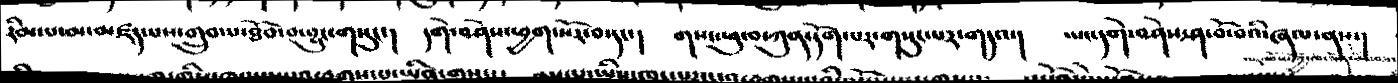རམ་པ་མ་མཛད་པས་གྲུབ་པ་ཐོབ་པ་བྱུང་གསུང་།    དགེ་བཤེས་ཕྱག་སོར་བ་དང་།  གསང་ཕུ་བ་ཀུན་དོག་པར་གསུང་པར་གདའ་།    ཡང་དགེ་བཤེས་ཤ་བོ་བའི་ཞལ་ནས་
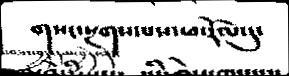གསང་སྔགས་པས་ཕ་རོལ་དུ་
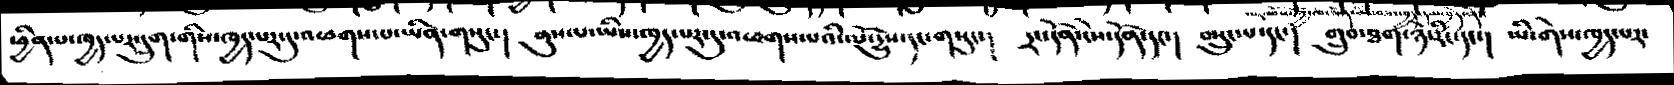ཕྱིན་པ་ཁྱད་པར་དྲུག་གིས་ཁྱད་པར་དུ་འཕགས་པ་ཡིན་གསུང་།   ནུས་པ་ཡིས་ཁྱད་པར་དུ་འཕགས་པའི་ལོ་རྱུས་དང་གསུང་།   དྲང་དོན་ངེས་དོན་དང་།   བསྲུང་པ་དང་།   གྲུབ་ཐག་ཉེ་རིང་དང་།   ཡི་གེས་ཁྱད་པར་
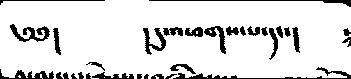༄༅།                །དུ་འཕགས་པ་དང་།
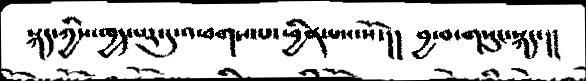སྐད་ཀྱིས་ཁྱད་པར་དུ་འཕགས་པ་ཕྱིན་པས་སོ་།།    བྱ་བ་གསུང་སྐད་།།
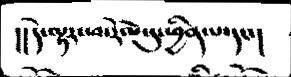།། དེ་ལྟར་ཕ་རོལ་དུ་ཕྱིན་པ་དང་།
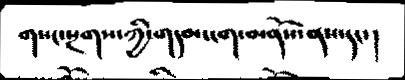གསང་སྔགས་ཀྱི་གདམ་ངག་མནོས་ནས་དང་།
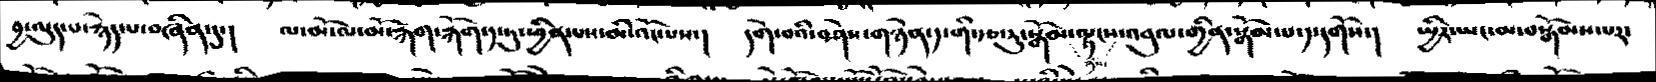བྱ་ལུད་པ་རྙེད་པ་བཞིན་དུ་།   ལ་མོ་ལ་མོ་རྐག་རྐོག་༡་ཏུ་ཕྱིན་པས་མི་འོང་པས་།   དགེ་བའི་བཤེས་གཉེན་༡་གི་རྩ་རུ་སྒོམ་ལྟངས་འབུལ་གྱིན་སྒོམ་པ་༡་དགོས་།  སྤྱིར་ཡང་མ་བསྒོམས་པར་
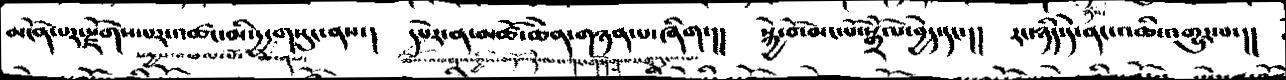མངོན་པར་རྫོགས་པར་འཚང་མི་དྱ་གསུང་ནས་།   དཔེར་ན་མཚོ་ཆེན་གཉན་པ་ཞིག་།།  སྐྱེ་བོ་མང་པོ་སྒྲོལ་བྱེད་དང་།།   རང་ཉིད་དེ་ནང་འཆི་འགྱུར་པ་།།
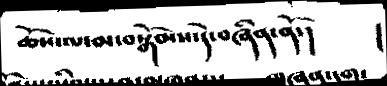ཆོས་ལ་མ་བསྒོམས་དེ་བཞིན་ནོ་།     །
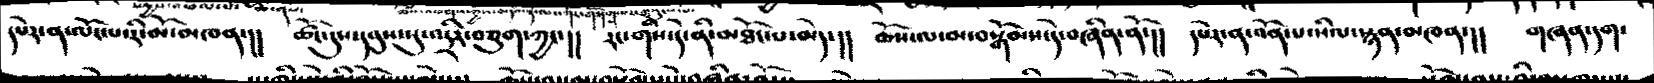དཔེར་ན་ལོང་པ་རི་མོ་མཁན་།།    ཚོང་དུས་དབུས་སུ་འདྲིར་བཅུག་ཀྱང་།།   རང་གིས་དེ་ནི་མཐོང་པ་མེད་།།  ཆོས་ལ་མ་བསྒོམས་དེ་བཞིན་ནོ་།།  དཔེར་ན་འོན་པ་སིལ་སྙན་མཁན་།།  གཞན་དག་
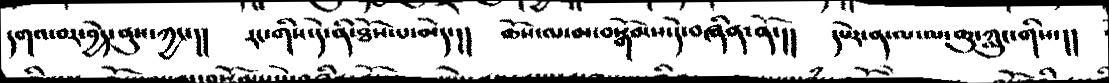དགའ་བར་བྱེད་ནུས་ཀྱང་།།  རང་གིས་དེ་ནི་ཐོས་པ་མེད་།།   ཆོས་ལ་མ་བསྒོམས་དེ་བཞིན་ནོ་།།  དཔེར་ན་ལ་ལ་ཆུ་ཀླུང་གིས་།།
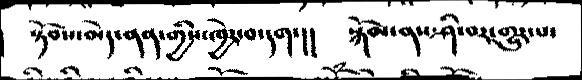།    སྟོབས་མེད་ནན་གྱིས་ཁྱེར་བ་དག་།།     སྐོམ་ནས་ཤི་བར་གྱུར་པ་
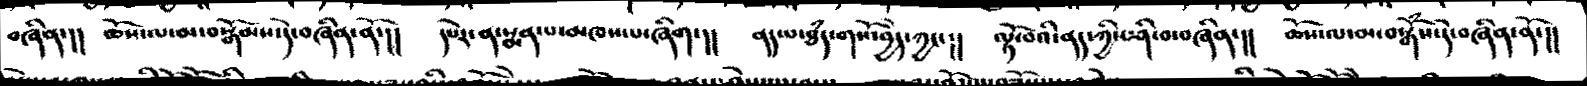བཞིན་།།  ཆོས་ལ་མ་བསྒོམས་དེ་་བཞིན་ནོ་།།  དཔེར་ན་སྨན་པ་མཁས་པ་ཞིག་།།  ནད་པ་ཐཾད་གསོ་བྱེད་ཀྱང་།།   ལྟོ་བའི་ནད་ཀྱིས་ཤི་བ་བཞིན་།།   ཆོས་ལ་མ་བསྒོཾས་དེ་བཞིན་ནོ་།།
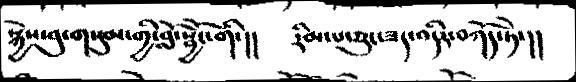སྐྱེས་བུ་གསུམ་གྱི་བློ་སྦྱོང་གི་།།   རིམ་པ་ཅུང་ཟད་འདིར་བཀོད་ཏེ་།།
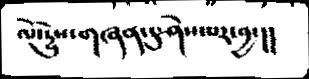ལོ་དྱུས་གཞན་དུ་ཤེས་པར་བྱ་།།
